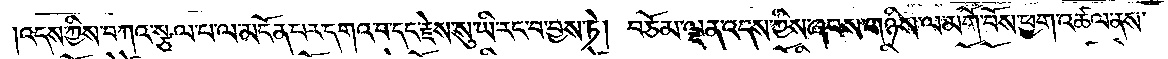འདས་ཀྱིས་བཀའ་སྩལ་པ་ལ་མངོན་པར་དགའ་བ་དང་རྗེས་སུ་ཡི་རང་བ་བྱས་ཏེ། བཅོམ་ལྡན་འདས་ཀྱིས་ཞབས་གཉིས་ལ་མགོ་བོས་ཕྱག་འཚལ་ནས་
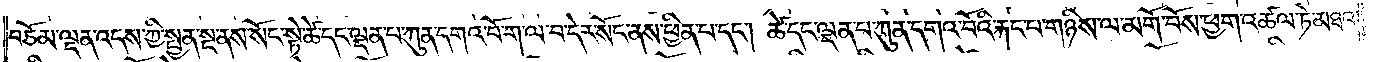བཅོམ་ལྡན་འདས་ཀྱི་སྤྱན་སྔ་ནས་སོང་སྟེ་ཚེ་དང་ལྡན་པ་ཀུན་དགའ་བོ་ག་ལ་བ་དེར་སོང་ནས་ཕྱིན་པ་དང༌། ཚེ་དང་ལྡན་པ་ཀུན་དགའ་བོའི་རྐང་པ་གཉིས་ལ་མགོ་བོས་ཕྱག་འཚལ་ཏེ་མཐའ་
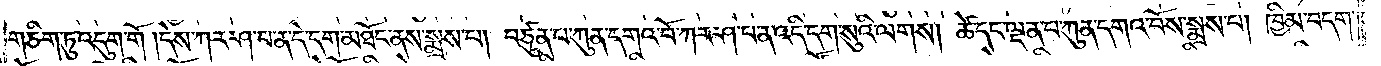གཅིག་ཏུ་འདུག་གོ །དེས་ཀར་ཤ་པ་ན་དེ་དག་མཐོང་ནས་སྨྲས་པ། བཙུན་པ་ཀུན་དགའ་བོ་ཀར་ཤ་པ་ན་འདི་དག་སུའི་ལགས། ཚེ་དང་ལྡན་པ་ཀུན་དགའ་བོས་སྨྲས་པ། ཁྱིམ་བདག་
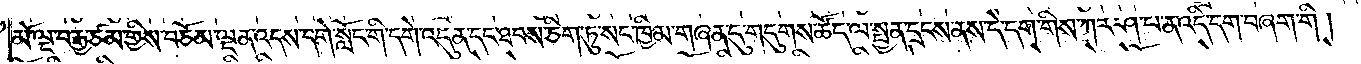མོ་ལྔ་བརྒྱ་ཙམ་གྱིས་བཅོམ་ལྡན་འདས་དགེ་སློང་གི་དགེ་འདུན་དང་ཐབས་ཅིག་ཏུ་སང་ཁྱིམ་གཞན་དུ་གདུགས་ཚོད་ལ་སྤྱན་དྲངས་ནས་དེ་དག་གིས་ཀར་ཤ་པ་ན་འདི་དག་བཞག་གི།
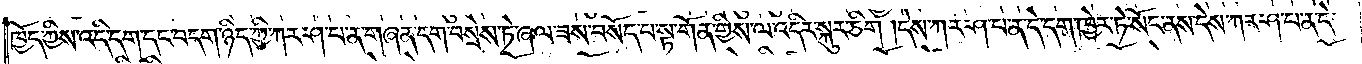ཁྱོད་ཀྱིས་འདི་དག་དང་བདག་ཉིད་ཀྱི་ཀར་ཤ་པ་ན་གཞན་དག་བསྲེས་ཏེ་ཞལ་ཟས་བསོད་པ་སྟ་གོན་གྱིས་ལ་འདིར་སྐུར་ཅིག །དེས་ཀར་ཤ་པ་ན་དེ་དག་ཁྱེར་ཏེ་སོང་ནས་དེས་ཀར་ཤ་པ་ན་དེ་
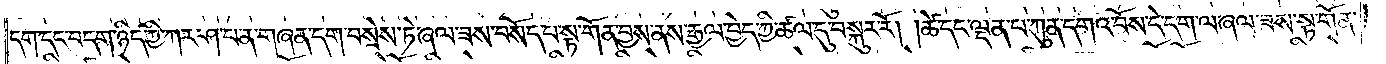དག་དང་བདག་ཉིད་ཀྱི་ཀར་ཤ་པ་ན་གཞན་དག་བསྲེས་ཏེ་ཞལ་ཟས་བསོད་པ་སྟ་གོན་བྱས་ནས་རྒྱལ་བྱེད་ཀྱི་ཚལ་དུ་བསྐུར་རོ། །ཚེ་དང་ལྡན་པ་ཀུན་དགའ་བོས་དེ་དག་ལ་ཞལ་ཟས་སྟ་གོན་
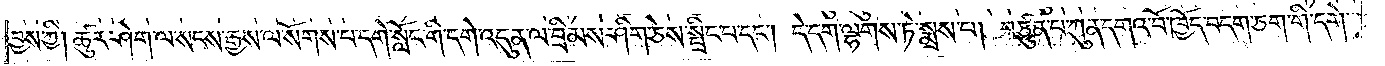བྱས་ཀྱི། ཚུར་ཤེག་ལ་སངས་རྒྱས་ལ་སོགས་པ་དགེ་སློང་གི་དགེ་འདུན་ལ་བྲིམས་ཤིག་ཅེས་སྤྲིང་པ་དང༌། དེ་དག་ལྷགས་ཏེ་སྨྲས་པ། བཙུན་པ་ཀུན་དགའ་བོ་ཁྱོད་བདག་ཅག་གི་དགེ་
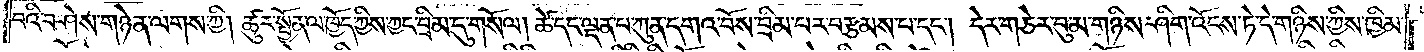བའི་བཤེས་གཉེན་ལགས་ཀྱི། ཚུར་སྤྱོན་ལ་ཁྱོད་ཀྱིས་ཀྱང་བྲིམ་དུ་གསོལ། ཚེ་དང་ལྡན་པ་ཀུན་དགའ་བོས་བྲིམ་པར་བརྩམས་པ་དང༌། དེར་གཅེར་བུ་མ་གཉིས་ཤིག་འོངས་ཏེ་དེ་གཉིས་ཀྱིས་ཁྱིམ་
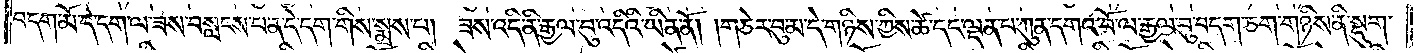བདག་མོ་དེ་དག་ལ་ཟས་བསླངས་པ་ན་དེ་དག་གིས་སྨྲས་པ། ཟས་འདི་ནི་རྒྱལ་བུ་འདིའི་ཡིན་ནོ། །གཅེར་བུ་མ་དེ་གཉིས་ཀྱིས་ཚེ་དང་ལྡན་པ་ཀུན་དགའ་བོ་ལ་རྒྱལ་བུ་བདག་ཅག་གཉིས་ནི་སྡུག་
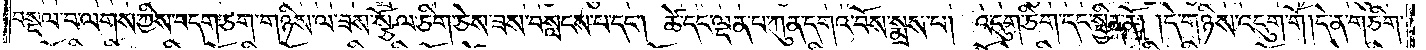བསྔལ་བ་ལགས་ཀྱིས་བདག་ཅག་གཉིས་ལ་ཟས་སྩོལ་ཅིག་ཅེས་ཟས་བསླངས་པ་དང༌། ཚེ་དང་ལྡན་པ་ཀུན་དགའ་བོས་སྨྲས་པ། འདུག་ཅིག་དང་སྦྱིན་ནོ། །དེ་གཉིས་འདུག་གོ །དེ་ན་གཅིག་
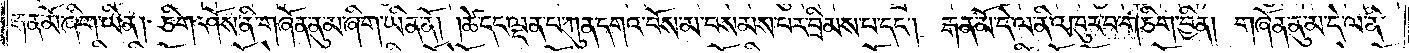རྒན་མོ་ཞིག་ཡིན། ཅིག་ཤོས་ནི་གཞོན་ནུ་མ་ཞིག་ཡིན་ནོ། །ཚེ་དང་ལྡན་པ་ཀུན་དགའ་བོས་མ་བསམས་པར་བྲིམས་པ་དང༌། རྒན་མོ་དེ་ལ་ནི་འཁུར་བ་གཅིག་བྱིན། གཞོན་ནུ་མ་དེ་ལ་ནི་
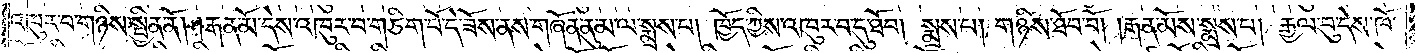འཁུར་བ་གཉིས་སྦྱིན་ནོ། །རྒན་མོ་དེས་འཁུར་བ་གཅིག་པོ་དེ་ཟོས་ནས་གཞོན་ནུ་མ་ལ་སྨྲས་པ། ཁྱོད་ཀྱིས་འཁུར་བ་དུ་ཐོབ། སྨྲས་པ། གཉིས་ཐོབ་བོ། །རྒན་མོས་སྨྲས་པ། རྒྱལ་བུ་དེས་ཁོ་
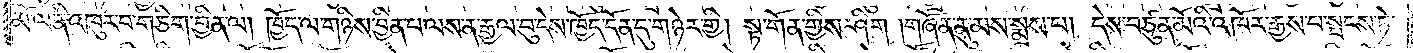མོ་ལ་ནི་འཁུར་བ་གཅིག་བྱིན་ལ། ཁྱོད་ལ་གཉིས་བྱིན་པ་ལས་ན་རྒྱལ་བུ་དེས་ཁྱོད་དོན་དུ་གཉེར་གྱི། སྟ་གོན་གྱིས་ཤིག །གཞོན་ནུ་མས་སྨྲས་པ། དེས་བཙུན་མོའི་འཁོར་རྒྱས་པ་སྤངས་ཏེ་
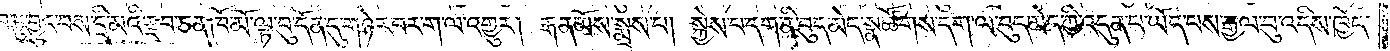རབ་ཏུ་བྱུང་བས་དྲི་མའི་རྫབ་ཅན་ཁོ་མོ་ལྟ་བུ་དོན་དུ་གཉེར་བར་ག་ལ་འགྱུར། རྒན་མོས་སྨྲས་པ། སྐྱེས་པ་དག་ནི་བུད་མེད་སྣ་ཚོགས་དག་ལ་བུད་མེད་ཀྱི་འདུན་པ་ཡོད་པས་རྒྱལ་བུ་འདིས་ཁྱོད་
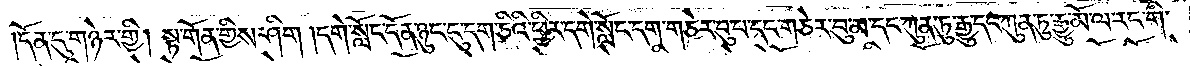དོན་དུ་གཉེར་གྱི། སྟ་གོན་གྱིས་ཤིག །དགེ་སློང་དོན་ཉུང་ངུ་དག་ཅིའི་ཕྱིར་དགེ་སློང་དག་གཅེར་བུ་པ་དང་གཅེར་བུ་མ་དང་ཀུན་ཏུ་རྒྱུ་དང་ཀུན་ཏུ་རྒྱུ་མོ་ལ་རང་གི་
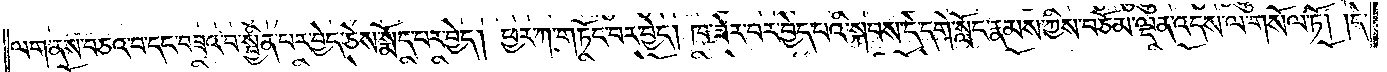ལག་ནས་བཅའ་བ་དང་བཟའ་བ་སྦྱིན་པར་བྱེད་ཅེས་སྨོད་པར་བྱེད། ཕྱར་ཀ་གཏོང་བར་བྱེད། ཁ་ཟེར་བར་བྱེད་པའི་སྐབས་དེ་དགེ་སློང་རྣམས་ཀྱིས་བཅོམ་ལྡན་འདས་ལ་གསོལ་ཏོ། །དེ་
